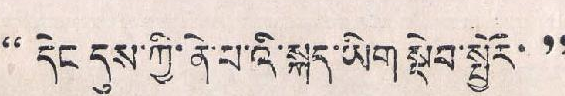'' དེང དུས་ཀྱི་ནེ་པ་འི་སྐད་ཡིག་སྡེབ་སྦྱོར་ ''
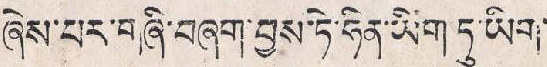ཞེས་པར་གཞི་བཞག་བྱས་ཏེ་ཧིན་ཡིག་ཏུ་ཡིག་
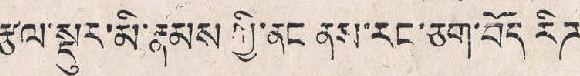རྩལ་སྡུར་མི་རྣམས ཀྱི་ནང་ནས་རང་ཅག་བོད རིཊ
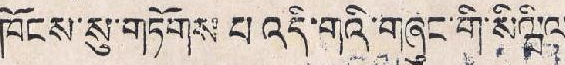ཁོངས་སུ་གཏོགས པ འདི་གའི་གཞུང་གི་སིཝིལ་
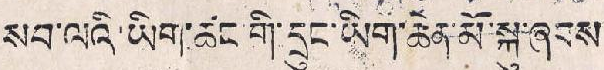སབ་ལའི་ཡིག་ཚང་གི་དྲུང་ཡིག་ཆེན་མོ་སྐུ་ཞབས་
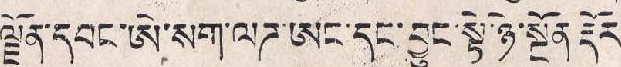ལྗོན་དབང་ཨེ་སག་ལཊ་ཨང་དང་བྱུང་སྟེ་ཉེ་སྔོན རྡོར་
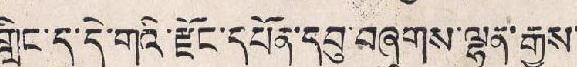གླིང་དུ་དེ་གའི་རྫོང་དཔོན་དབུ་བཞུགས་ལྷན་རྒྱས་
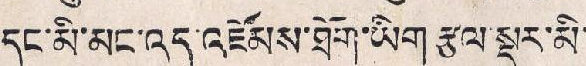དང་མི་མང་འདུ་འཛོམས་ཐོག་ཡིག་རྩལ་སྡུར་མི་
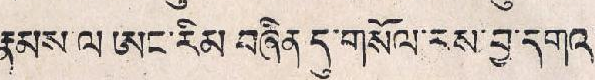རྣམས་ལ ཨང་རིམ་བཞིན དུ་གསོལ་རས་བྱ་དགའ་
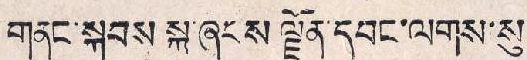གནང་སྐབས སྐུ་ཞབས་ལྗོན་དབང་ལགས་སུ་
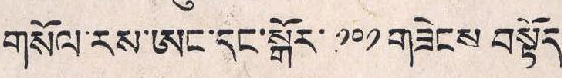གསོལ་རས་ཨང་དང་སྒོར་ ༡༠༡ གཟེངས བསྟོད་
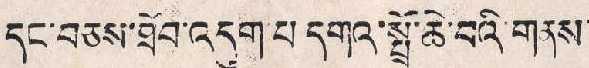དང་བཅས་ཐོབ་འདུག་པ དགའ་སྤྲོ་ཆེ་བའི་གནས་
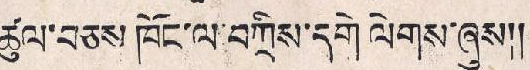ཚུལ་བཅས་ཁོང་ལ་བཀྲིས་དགེ་ལེགས་ཞུས།།
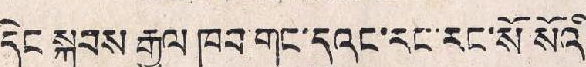དེང་སྐབས རྒྱལ ཁབ་གང་དུའང་རང་རང་སོ་སོའི་
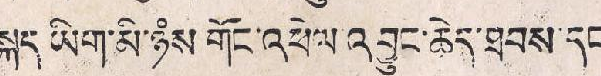སྐད ཡིག་མི་ཉཾས་གོང་འཕེལ་འབྱུང་ཆེད་ཐབས་དང་
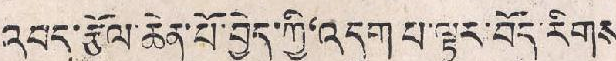འབད་རྩོལ་ཆེན་པོ་བྱེད་ཀྱི'འདུག་པ་ལྟར་བོད་རིགས
